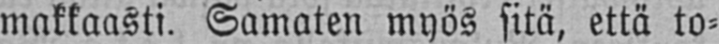makkaasti. Samaten myös sitä, että to-
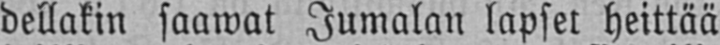dellakin saawat Jumalan lapset heittää
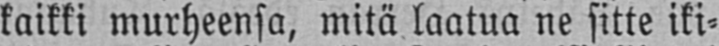kaikki murheensa, mitä laatua ne sitte iki-
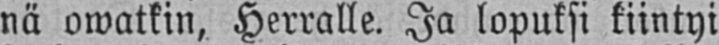nä owatkin, Herralle. Ja lopuksi kiintyi
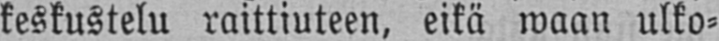keskustelu raittiuteen, eikä waan ulko-
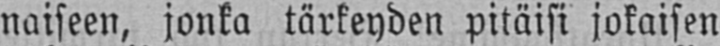naiseen, jonka tärkeyden pitäisi jokaisen
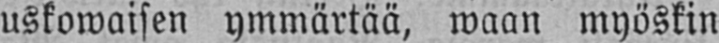uskowaisen ymmärtää, waan myöskin
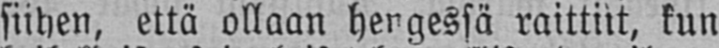siihen, että ollaan hengessä raittiit, kun
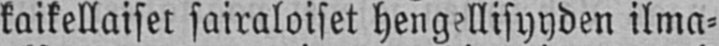kaikellaiset sairaloiset hengellisyyden ilma-
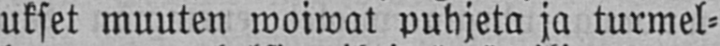ukset muuten woiwat puhjeta ja turmel-
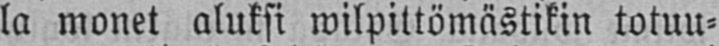la monet aluksi wilpittömästikin totuu-
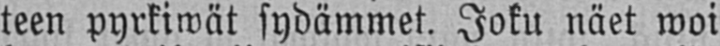teen pyrkiwät sydämmet. Joku näet woi
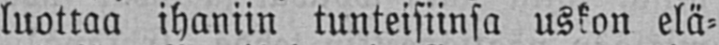luottaa ihaniin tunteisiinsa uskon elä-
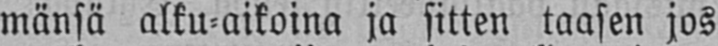mänsä alku-aikoina ja sitten taasen jos
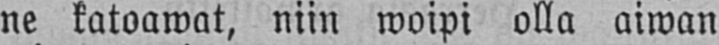ne katoawat, niin woipi olla aiwan
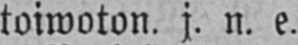toiwoton. j. n. e.
